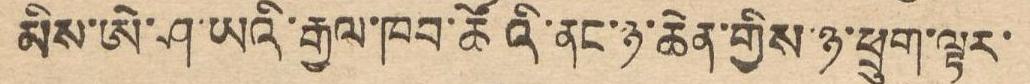མིས་ཨེ་ཤ་ཡའི་རྒྱལ་ཁབ་ཚོའི་ནང་ཉ་ཆེན་གྱིས་ཉ་ཕྲུག་ལྟར་
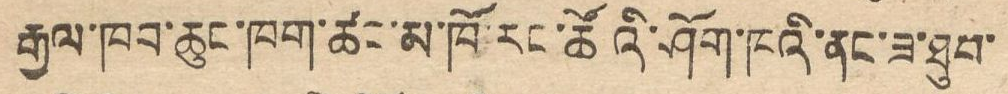རྒྱལ་ཁབ་ཆུང་ཁག་ཚང་མ་ཁོ་རང་ཚོའི་ཤོག་ཁའི་ནང་ཟ་ཐུས་
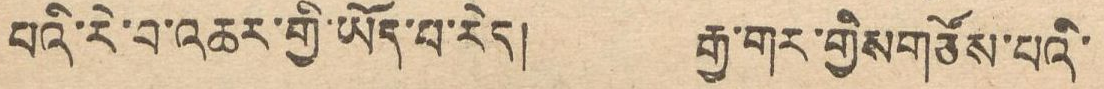པའི་རེ་བ་འཆར་གྱི་ཡོད་པ་རེད། རྒྱ་གར་གྱིས་གཙོས་པའི་
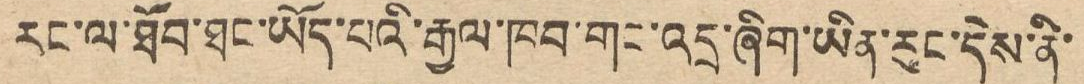རང་ལ་ཐོབ་ཐང་ཡོད་པའི་རྒྱལ་ཁབ་གང་འདྲ་ཞིག་ཡིན་རུང་དེས་ནི་
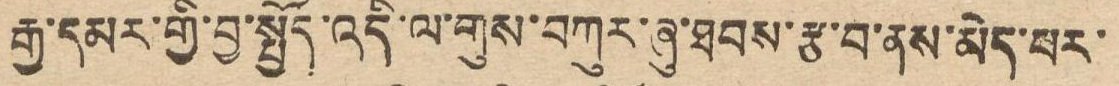རྒྱ་དམར་ཀྱི་བྱ་སྤྱོད་འདི་ལ་གུས་བཀུར་ཞུ་ཐབས་རྩ་བ་ནས་མེད་པར་
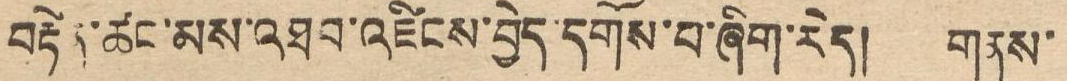བརྟེན་ཚང་མས་འཐབ་འཛིངས་བྱེད་དགོས་པ་ཞིག་རེད། གནས་
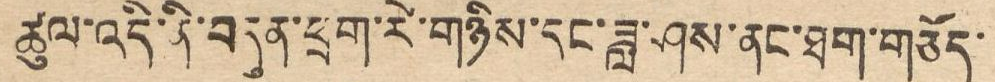ཚུལ་འདི་ནི་བདུན་ཕྲག་རེ་གཉིས་དང་ཟླ་ཤས་ནང་ཐག་གཅོད་
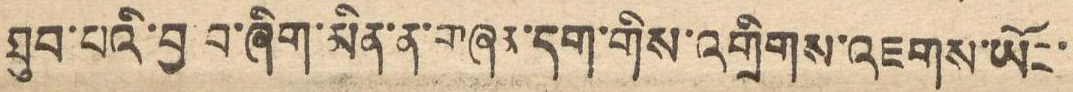ཐུབ་པའི་བྱ་བ་ཞིག་མིན་ན་གཞན་དག་གིས་འགྲིགས་འཇགས་ཡོང་
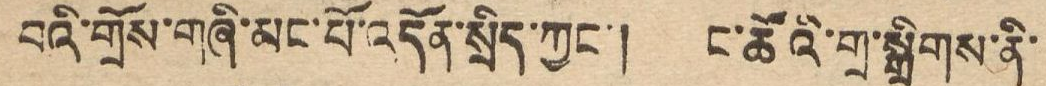བའི་གྲོས་གཞི་མང་པོ་འདོན་སྲིད་ཀྱང་། ང་ཚོའི་གྲ་སྒྲིགས་ནི་
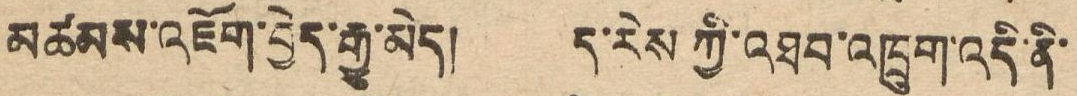མཚམས་འཇོག་བྱེད་རྒྱུ་མེད། ད་རེས ཀྱི་འཐབ་འཁྲུག་འདི་ནི་
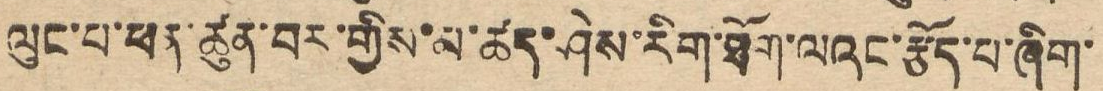ལུང་པ་ཕན་ཚུན་བར་གྱིས་མ་ཚད་ཤེས་རིག་ཐོག་ལའང་རྩོད་པ་ཞིག་
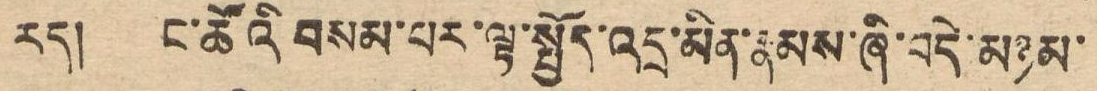རེད། ང་ཚོའི བསམ་པར་ལྟ་སྤྱོད་འདྲ་མིན་རྣམས་ཞི་བདེ་མཉམ་
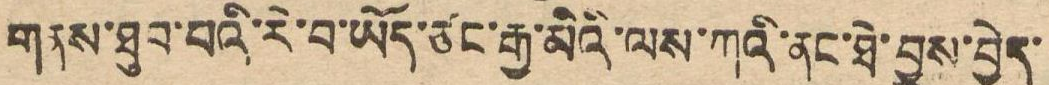གནས་ཐུབ་པའི་རེ་བ་ཡོད་ཙང་རྒྱ་མིའི་ལས་ཀའི་ནང་ཐེ་བྱུས་བྱེད་
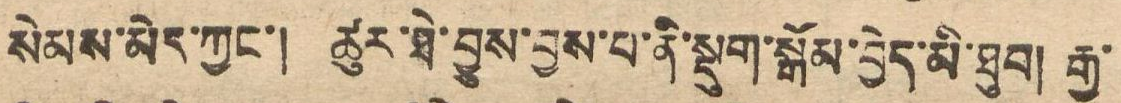སེམས་མེད་ཀྱང་། ཚུར་ཐེ་བྱུས་བྱས་པ་ནི་སྡུག་སྒོམ་བྱེད་མི་ཐུབ། རྒྱ་
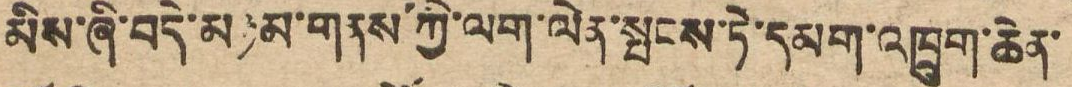མིས་ཞི་བདེ་མཉམ་གནས་ཀྱི་ལག་ལེན་སྤངས་ཏེ་དམག་འཁྲུག་ཆེན་
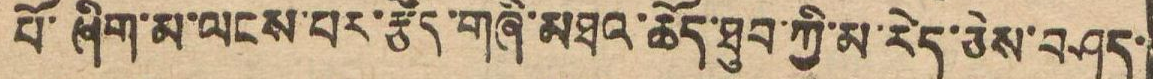པོ་ཞིག་མ་ལངས་པར་རྩོད་གཞི་མཐའ་ཆོད་ཐུབ་ཀྱི་མ་རེད་ཅེས་བཤད་
